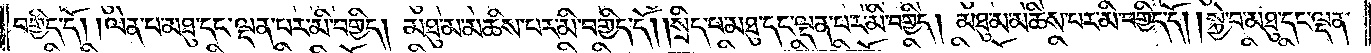བགྱིད་དོ། །ལེན་པ་མཐུ་དང་ལྡན་པར་མི་བགྱིད། མཐུ་མ་མཆིས་པར་མི་བགྱིད་དོ། །སྲིད་པ་མཐུ་དང་ལྡན་པར་མི་བགྱིད། མཐུ་མ་མཆིས་པར་མི་བགྱིད་དོ། །སྐྱེ་བ་མཐུ་དང་ལྡན་
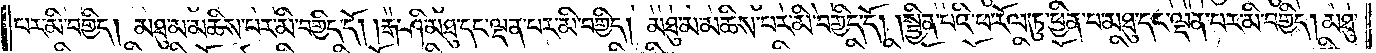པར་མི་བགྱིད། མཐུ་མ་མཆིས་པར་མི་བགྱིད་དོ། །རྒ་ཤི་མཐུ་དང་ལྡན་པར་མི་བགྱིད། མཐུ་མ་མཆིས་པར་མི་བགྱིད་དོ། །སྦྱིན་པའི་ཕ་རོལ་ཏུ་ཕྱིན་པ་མཐུ་དང་ལྡན་པར་མི་བགྱིད། མཐུ་
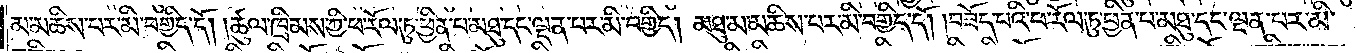མ་མཆིས་པར་མི་བགྱིད་དོ། །ཚུལ་ཁྲིམས་ཀྱི་ཕ་རོལ་ཏུ་ཕྱིན་པ་མཐུ་དང་ལྡན་པར་མི་བགྱིད། མཐུ་མ་མཆིས་པར་མི་བགྱིད་དོ། །བཟོད་པའི་ཕ་རོལ་ཏུ་ཕྱིན་པ་མཐུ་དང་ལྡན་པར་མི་
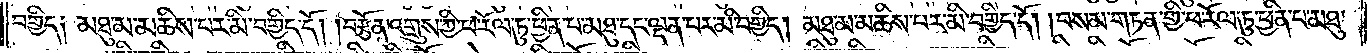བགྱིད༑ མཐུ་མ་མཆིས་པར་མི་བགྱིད་དོ། །བརྩོན་འགྲུས་ཀྱི་ཕ་རོལ་ཏུ་ཕྱིན་པ་མཐུ་དང་ལྡན་པར་མི་བགྱིད། མཐུ་མ་མཆིས་པར་མི་བགྱིད་དོ། །བསམ་གཏན་གྱི་ཕ་རོལ་ཏུ་ཕྱིན་པ་མཐུ་
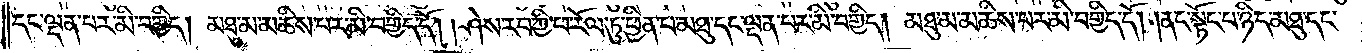དང་ལྡན་པར་མི་བགྱིད། མཐུ་མ་མཆིས་པར་མི་བགྱིད་དོ། །ཤེས་རབ་ཀྱི་ཕ་རོལ་ཏུ་ཕྱིན་པ་མཐུ་དང་ལྡན་པར་མི་བགྱིད། མཐུ་མ་མཆིས་པར་མི་བགྱིད་དོ། །ནང་སྟོང་པ་ཉིད་མཐུ་དང་
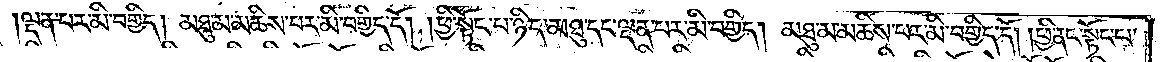ལྡན་པར་མི་བགྱིད། མཐུ་མ་མཆིས་པར་མི་བགྱིད་དོ། །ཕྱི་སྟོང་པ་ཉིད་མཐུ་དང་ལྡན་པར་མི་བགྱིད། མཐུ་མ་མཆིས་པར་མི་བགྱིད་དོ། །ཕྱི་ནང་སྟོང་པ་
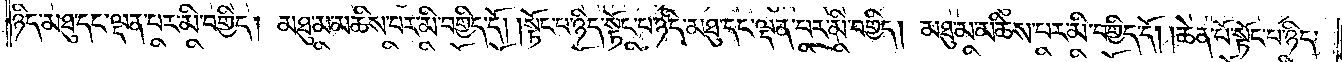ཉིད་མཐུ་དང་ལྡན་པར་མི་བགྱིད། མཐུ་མ་མཆིས་པར་མི་བགྱིད་དོ། །སྟོང་པ་ཉིད་སྟོང་པ་ཉིད་མཐུ་དང་ལྡན་པར་མི་བགྱིད། མཐུ་མ་མཆིས་པར་མི་བགྱིད་དོ། །ཆེན་པོ་སྟོང་པ་ཉིད་
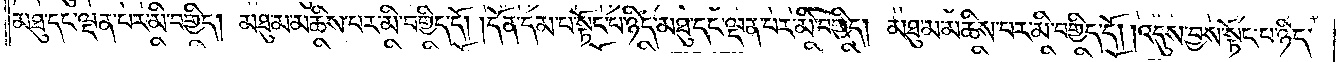མཐུ་དང་ལྡན་པར་མི་བགྱིད། མཐུ་མ་མཆིས་པར་མི་བགྱིད་དོ། །དོན་དམ་པ་སྟོང་པ་ཉིད་མཐུ་དང་ལྡན་པར་མི་བགྱིད། མཐུ་མ་མཆིས་པར་མི་བགྱིད་དོ། །འདུས་བྱས་སྟོང་པ་ཉིད་
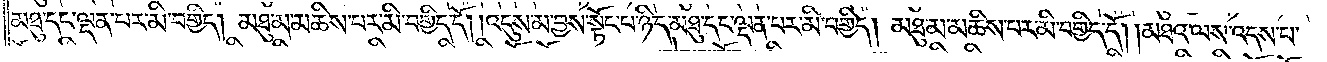མཐུ་དང་ལྡན་པར་མི་བགྱིད། མཐུ་མ་མཆིས་པར་མི་བགྱིད་དོ། །འདུས་མ་བྱས་སྟོང་པ་ཉིད་མཐུ་དང་ལྡན་པར་མི་བགྱིད། མཐུ་མ་མཆིས་པར་མི་བགྱིད་དོ། །མཐའ་ལས་འདས་པ་
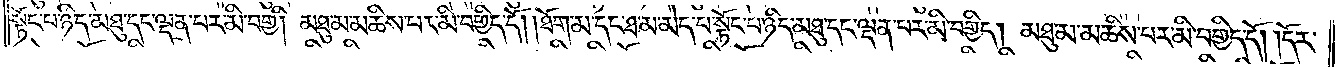སྟོང་པ་ཉིད་མཐུ་དང་ལྡན་པར་མི་བགྱིད། མཐུ་མ་མཆིས་པར་མི་བགྱིད་དོ། །ཐོག་མ་དང་ཐ་མ་མེད་པ་སྟོང་པ་ཉིད་མཐུ་དང་ལྡན་པར་མི་བགྱིད། མཐུ་མ་མཆིས་པར་མི་བགྱིད་དོ། །དོར་
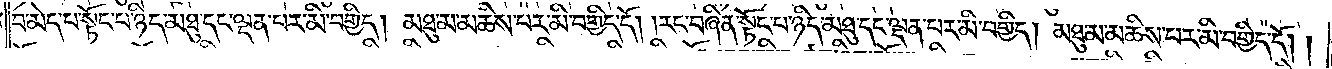བ་མེད་པ་སྟོང་པ་ཉིད་མཐུ་དང་ལྡན་པར་མི་བགྱིད། མཐུ་མ་མཆིས་པར་མི་བགྱིད་དོ། །རང་བཞིན་སྟོང་པ་ཉིད་མཐུ་དང་ལྡན་པར་མི་བགྱིད། མཐུ་མ་མཆིས་པར་མི་བགྱིད་དོ། །
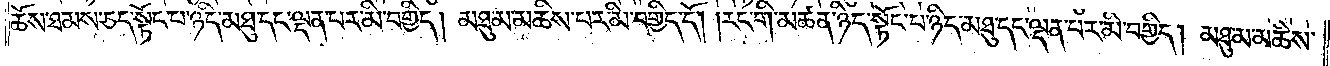ཆོས་ཐམས་ཅད་སྟོང་པ་ཉིད་མཐུ་དང་ལྡན་པར་མི་བགྱིད། མཐུ་མ་མཆིས་པར་མི་བགྱིད་དོ། །རང་གི་མཚན་ཉིད་སྟོང་པ་ཉིད་མཐུ་དང་ལྡན་པར་མི་བགྱིད། མཐུ་མ་མཆིས་
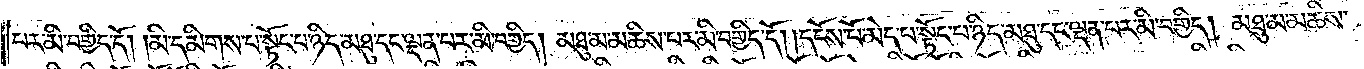པར་མི་བགྱིད་དོ། །མི་དམིགས་པ་སྟོང་པ་ཉིད་མཐུ་དང་ལྡན་པར་མི་བགྱིད། མཐུ་མ་མཆིས་པར་མི་བགྱིད་དོ། །དངོས་པོ་མེད་པ་སྟོང་པ་ཉིད་མཐུ་དང་ལྡན་པར་མི་བགྱིད། མཐུ་མ་མཆིས་
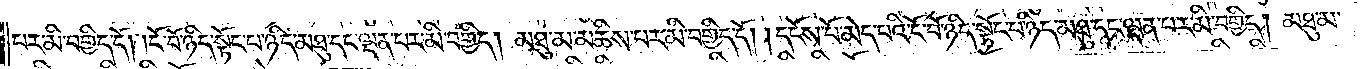པར་མི་བགྱིད་དོ། །ངོ་བོ་ཉིད་སྟོང་པ་ཉིད་མཐུ་དང་ལྡན་པར་མི་བགྱིད། མཐུ་མ་མཆིས་པར་མི་བགྱིད་དོ། །དངོས་པོ་མེད་པའི་ངོ་བོ་ཉིད་སྟོང་པ་ཉིད་མཐུ་དང་ལྡན་པར་མི་བགྱིད། མཐུ་མ་
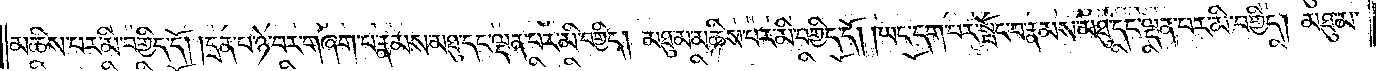མཆིས་པར་མི་བགྱིད་དོ། །དྲན་པ་ཉེ་བར་གཞག་པ་རྣམས་མཐུ་དང་ལྡན་པར་མི་བགྱིད། མཐུ་མ་མཆིས་པར་མི་བགྱིད་དོ། །ཡང་དག་པར་སྤོང་བ་རྣམས་མཐུ་དང་ལྡན་པར་མི་བགྱིད། མཐུ་མ་
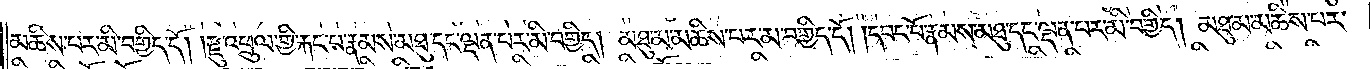མཆིས་པར་མི་བགྱིད་དོ། །རྫུ་འཕྲུལ་གྱི་རྐང་པ་རྣམས་མཐུ་དང་ལྡན་པར་མི་བགྱིད། མཐུ་མ་མཆིས་པར་མི་བགྱིད་དོ། །དབང་པོ་རྣམས་མཐུ་དང་ལྡན་པར་མི་བགྱིད། མཐུ་མ་མཆིས་པར་
